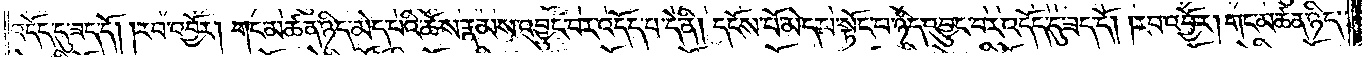འདོད་དུ་ཟད་དོ། །རབ་འབྱོར། གང་མཚན་ཉིད་མེད་པའི་ཆོས་རྣམས་འབྱུང་བར་འདོད་པ་དེ་ནི། དངོས་པོ་མེད་པ་སྟོང་པ་ཉིད་འབྱུང་བར་འདོད་དུ་ཟད་དོ། །རབ་འབྱོར། གང་མཚན་ཉིད་
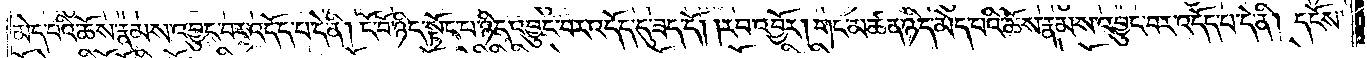མེད་པའི་ཆོས་རྣམས་འབྱུང་བར་འདོད་པ་དེ་ནི། ངོ་བོ་ཉིད་སྟོང་པ་ཉིད་འབྱུང་བར་འདོད་དུ་ཟད་དོ། །རབ་འབྱོར། གང་མཚན་ཉིད་མེད་པའི་ཆོས་རྣམས་འབྱུང་བར་འདོད་པ་དེ་ནི། དངོས་
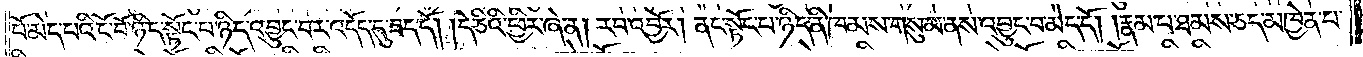པོ་མེད་པའི་ངོ་བོ་ཉིད་སྟེང་པ་ཉིད་འབྱུང་བར་འདོད་དུ་ཟད་དོ། །དེ་ཅིའི་ཕྱིར་ཞེ་ན། རབ་འབྱོར། ནང་སྟོང་པ་ཉིད་ནི་ཁམས་གསུམ་ནས་འབྱུང་བ་མེད་དོ། །རྣམ་པ་ཐམས་ཅད་མཁྱེན་པ་
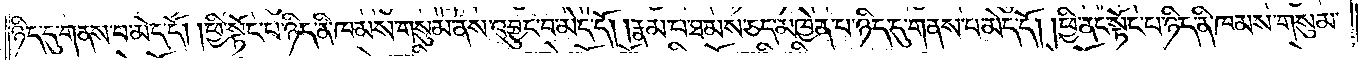ཉིད་དུ་གནས་པ་མེད་དོ། །ཕྱི་སྟོང་པ་ཉིད་ནི་ཁམས་གསུམ་ནས་འབྱུང་བ་མེད་དོ། །རྣམ་པ་ཐམས་ཅད་མཁྱེན་པ་ཉིད་དུ་གནས་པ་མེད་དོ། །ཕྱི་ནང་སྟོང་པ་ཉིད་ནི་ཁམས་གསུམ་
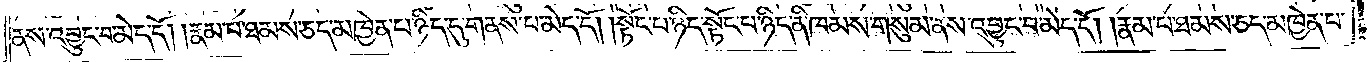ནས་འབྱུང་བ་མེད་དོ། །རྣམ་པ་ཐམས་ཅད་མཁྱེན་པ་ཉིད་དུ་གནས་པ་མེད་དོ། །སྟོང་པ་ཉིད་སྟོང་པ་ཉིད་ནི་ཁམས་གསུམ་ནས་འབྱུང་བ་མེད་དོ། །རྣམ་པ་ཐམས་ཅད་མཁྱེན་པ་
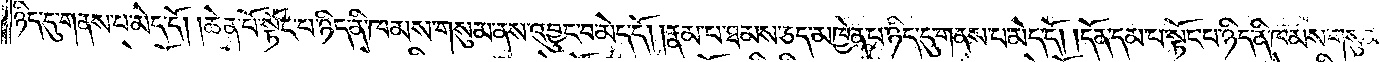ཉིད་དུ་གནས་པ་མེད་དོ། །ཆེན་པོ་སྟོང་པ་ཉིད་ནི་ཁམས་གསུམ་ནས་འབྱུང་བ་མེད་དོ། །རྣམ་པ་ཐམས་ཅད་མཁྱེན་པ་ཉིད་དུ་གནས་པ་མེད་དོ། །དོན་དམ་པ་སྟོང་པ་ཉིད་ནི་ཁམས་གསུམ་
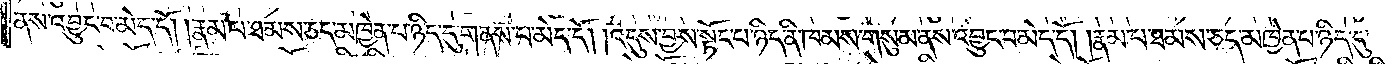ནས་འབྱུང་བ་མེད་དོ། །རྣམ་པ་ཐམས་ཅད་མཁྱེན་པ་ཉིད་དུ་གནས་པ་མེད་དོ། །འདུས་བྱས་སྟོང་པ་ཉིད་ནི་ཁམས་གསུམ་ནས་འབྱུང་བ་མེད་དོ། །རྣམ་པ་ཐམས་ཅད་མཁྱེན་པ་ཉིད་དུ་
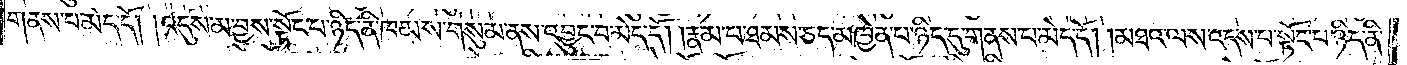གནས་པ་མེད་དོ། །འདུས་མ་བྱས་སྟོང་པ་ཉིད་ནི་ཁམས་གསུམ་ནས་འབྱུང་བ་མེད་དོ། །རྣམ་པ་ཐམས་ཅད་མཁྱེན་པ་ཉིད་དུ་གནས་པ་མེད་དོ། །མཐའ་ལས་འདས་པ་སྟོང་པ་ཉིད་ནི་
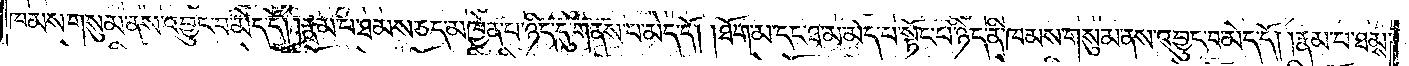ཁམས་གསུམ་ནས་འབྱུང་བ་མེད་དོ། །རྣམ་པ་ཐམས་ཅད་མཁྱེན་པ་ཉིད་དུ་གནས་པ་མེད་དོ། །ཐོག་མ་དང་ཐ་མ་མེད་པ་སྟོང་པ་ཉིད་ནི་ཁམས་གསུམ་ནས་འབྱུང་བ་མེད་དོ། །རྣམ་པ་ཐམས་
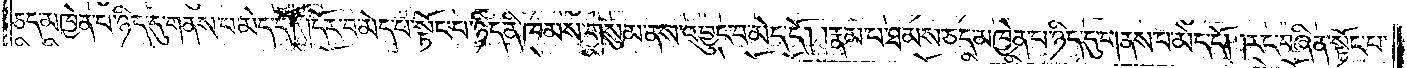ཅད་མཁྱེན་པ་ཉིད་དུ་གནས་པ་མེད་དོ། །དོར་བ་མེད་པ་སྟོང་པ་ཉིད་ནི་ཁམས་གསུམ་ནས་འབྱུང་བ་མེད་དོ། །རྣམ་པ་ཐམས་ཅད་མཁྱེན་པ་ཉིད་དུ་གནས་པ་མེད་དོ། །རང་བཞིན་སྟོང་པ་
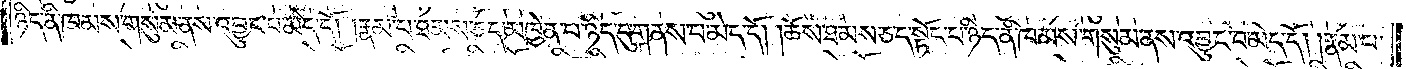ཉིད་ནི་ཁམས་གསུམ་ནས་འབྱུང་བ་མེད་དོ། །རྣམ་པ་ཐམས་ཅད་མཁྱེན་པ་ཉིད་དུ་གནས་པ་མེད་དོ། །ཆོས་ཐམས་ཅད་སྟོང་པ་ཉིད་ནི་ཁམས་གསུམ་ནས་འབྱུང་བ་མེད་དོ། །རྣམ་པ་
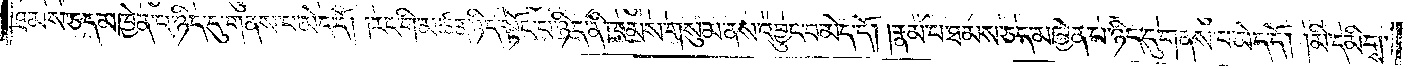ཐམས་ཅད་མཁྱེན་པ་ཉིད་དུ་གནས་པ་མེད་དོ། །རང་གི་མཚན་ཉིད་སྟོང་པ་ཉིད་ནི་ཁམས་གསུམ་ནས་འབྱུང་བ་མེད་དོ། །རྣམ་པ་ཐམས་ཅད་མཁྱེན་པ་ཉིད་དུ་གནས་པ་མེད་དོ། །མི་དམིགས་
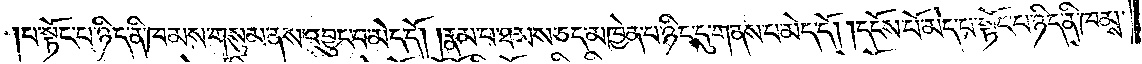པ་སྟོང་པ་ཉིད་ནི་ཁམས་གསུམ་ནས་འབྱུང་བ་མེད་དོ། །རྣམ་པ་ཐམས་ཅད་མཁྱེན་པ་ཉིད་དུ་གནས་པ་མེད་དོ། །དངོས་པོ་མེད་པ་སྟོང་པ་ཉིད་ནི་ཁམས་
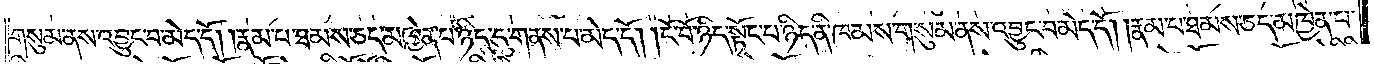གསུམ་ནས་འབྱུང་བ་མེད་དོ། །རྣམ་པ་ཐམས་ཅད་མཁྱེན་པ་ཉིད་དུ་གནས་པ་མེད་དོ། །ངོ་བོ་ཉིད་སྟོང་པ་ཉིད་ནི་ཁམས་གསུམ་ནས་འབྱུང་བ་མེད་དོ། །རྣམ་པ་ཐམས་ཅད་མཁྱེན་པ་
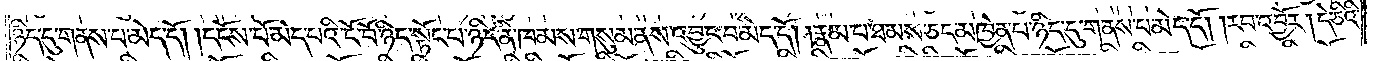ཉིད་དུ་གནས་པ་མེད་དོ། །དངོས་པོ་མེད་པའི་ངོ་བོ་ཉིད་སྟོང་པ་ཉིད་ནི་ཁམས་གསུམ་ནས་འབྱུང་བ་མེད་དོ། །རྣམ་པ་ཐམས་ཅད་མཁྱེན་པ་ཉིད་དུ་གནས་པ་མེད་དོ། །རབ་འབྱོར། དེ་ཅིའི་
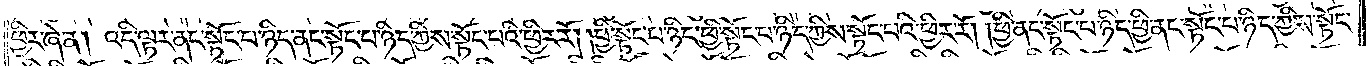ཕྱིར་ཞེ་ན། འདི་ལྟར་ནང་སྟོང་པ་ཉིད་ནང་སྟོང་པ་ཉིད་ཀྱིས་སྟོང་པའི་ཕྱིར་རོ། །ཕྱི་སྟོང་པ་ཉིད་ཕྱི་སྟོང་པ་ཉིད་ཀྱིས་སྟོང་པའི་ཕྱིར་རོ། །ཕྱི་ནང་སྟོང་པ་ཉིད་ཕྱི་ནང་སྟོང་པ་ཉིད་ཀྱིས་སྟོང་
